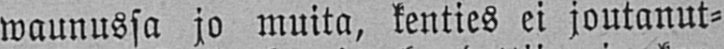waunussa jo muita, kenties ei joutanut-
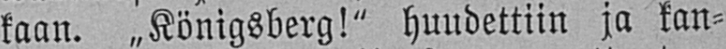kaan. „Königsberg!" huudettiin ja kan-
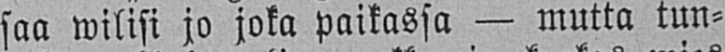saa wilisi jo joka paikassa — mutta tun-
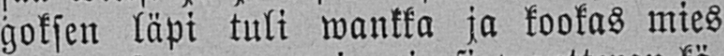goksen läpi tuli wankka ja kookas mies
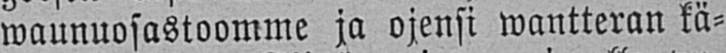waunuosastoomme ja ojensi wantteran kä-
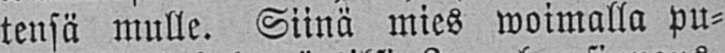tensä mulle. Siinä mies woimalla pu-
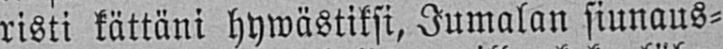risti kättäni hywästiksi, Jumalan siunaus-
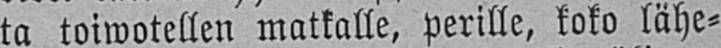ta toiwotellen matkalle, perille, koko lähe-
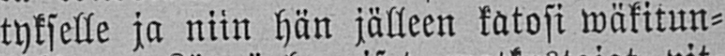tykselle ja niin hän jälleen katosi wäkitun-
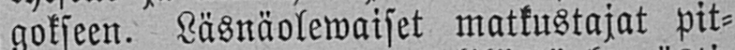gokseen. Läsnäolewaiset matkustajat pit-
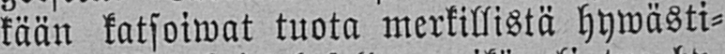kään katsoiwat tuota merkillistä hywästi-
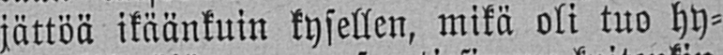jättöä ikäänkuin kysellen, mikä oli tuo hy-
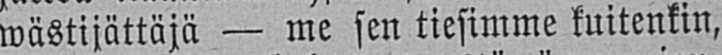wästijättäjä — me sen tiesimme kuitenkin,
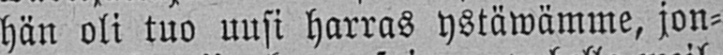hän oli tuo uusi harras ystäwämme, jon-
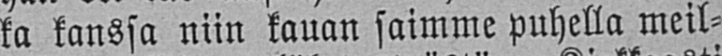ka kanssa niin kauan saimme puhella meil-
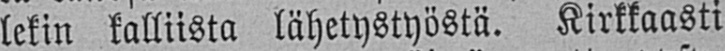lekin kalliista lähetystyöstä. Kirkkaasti
